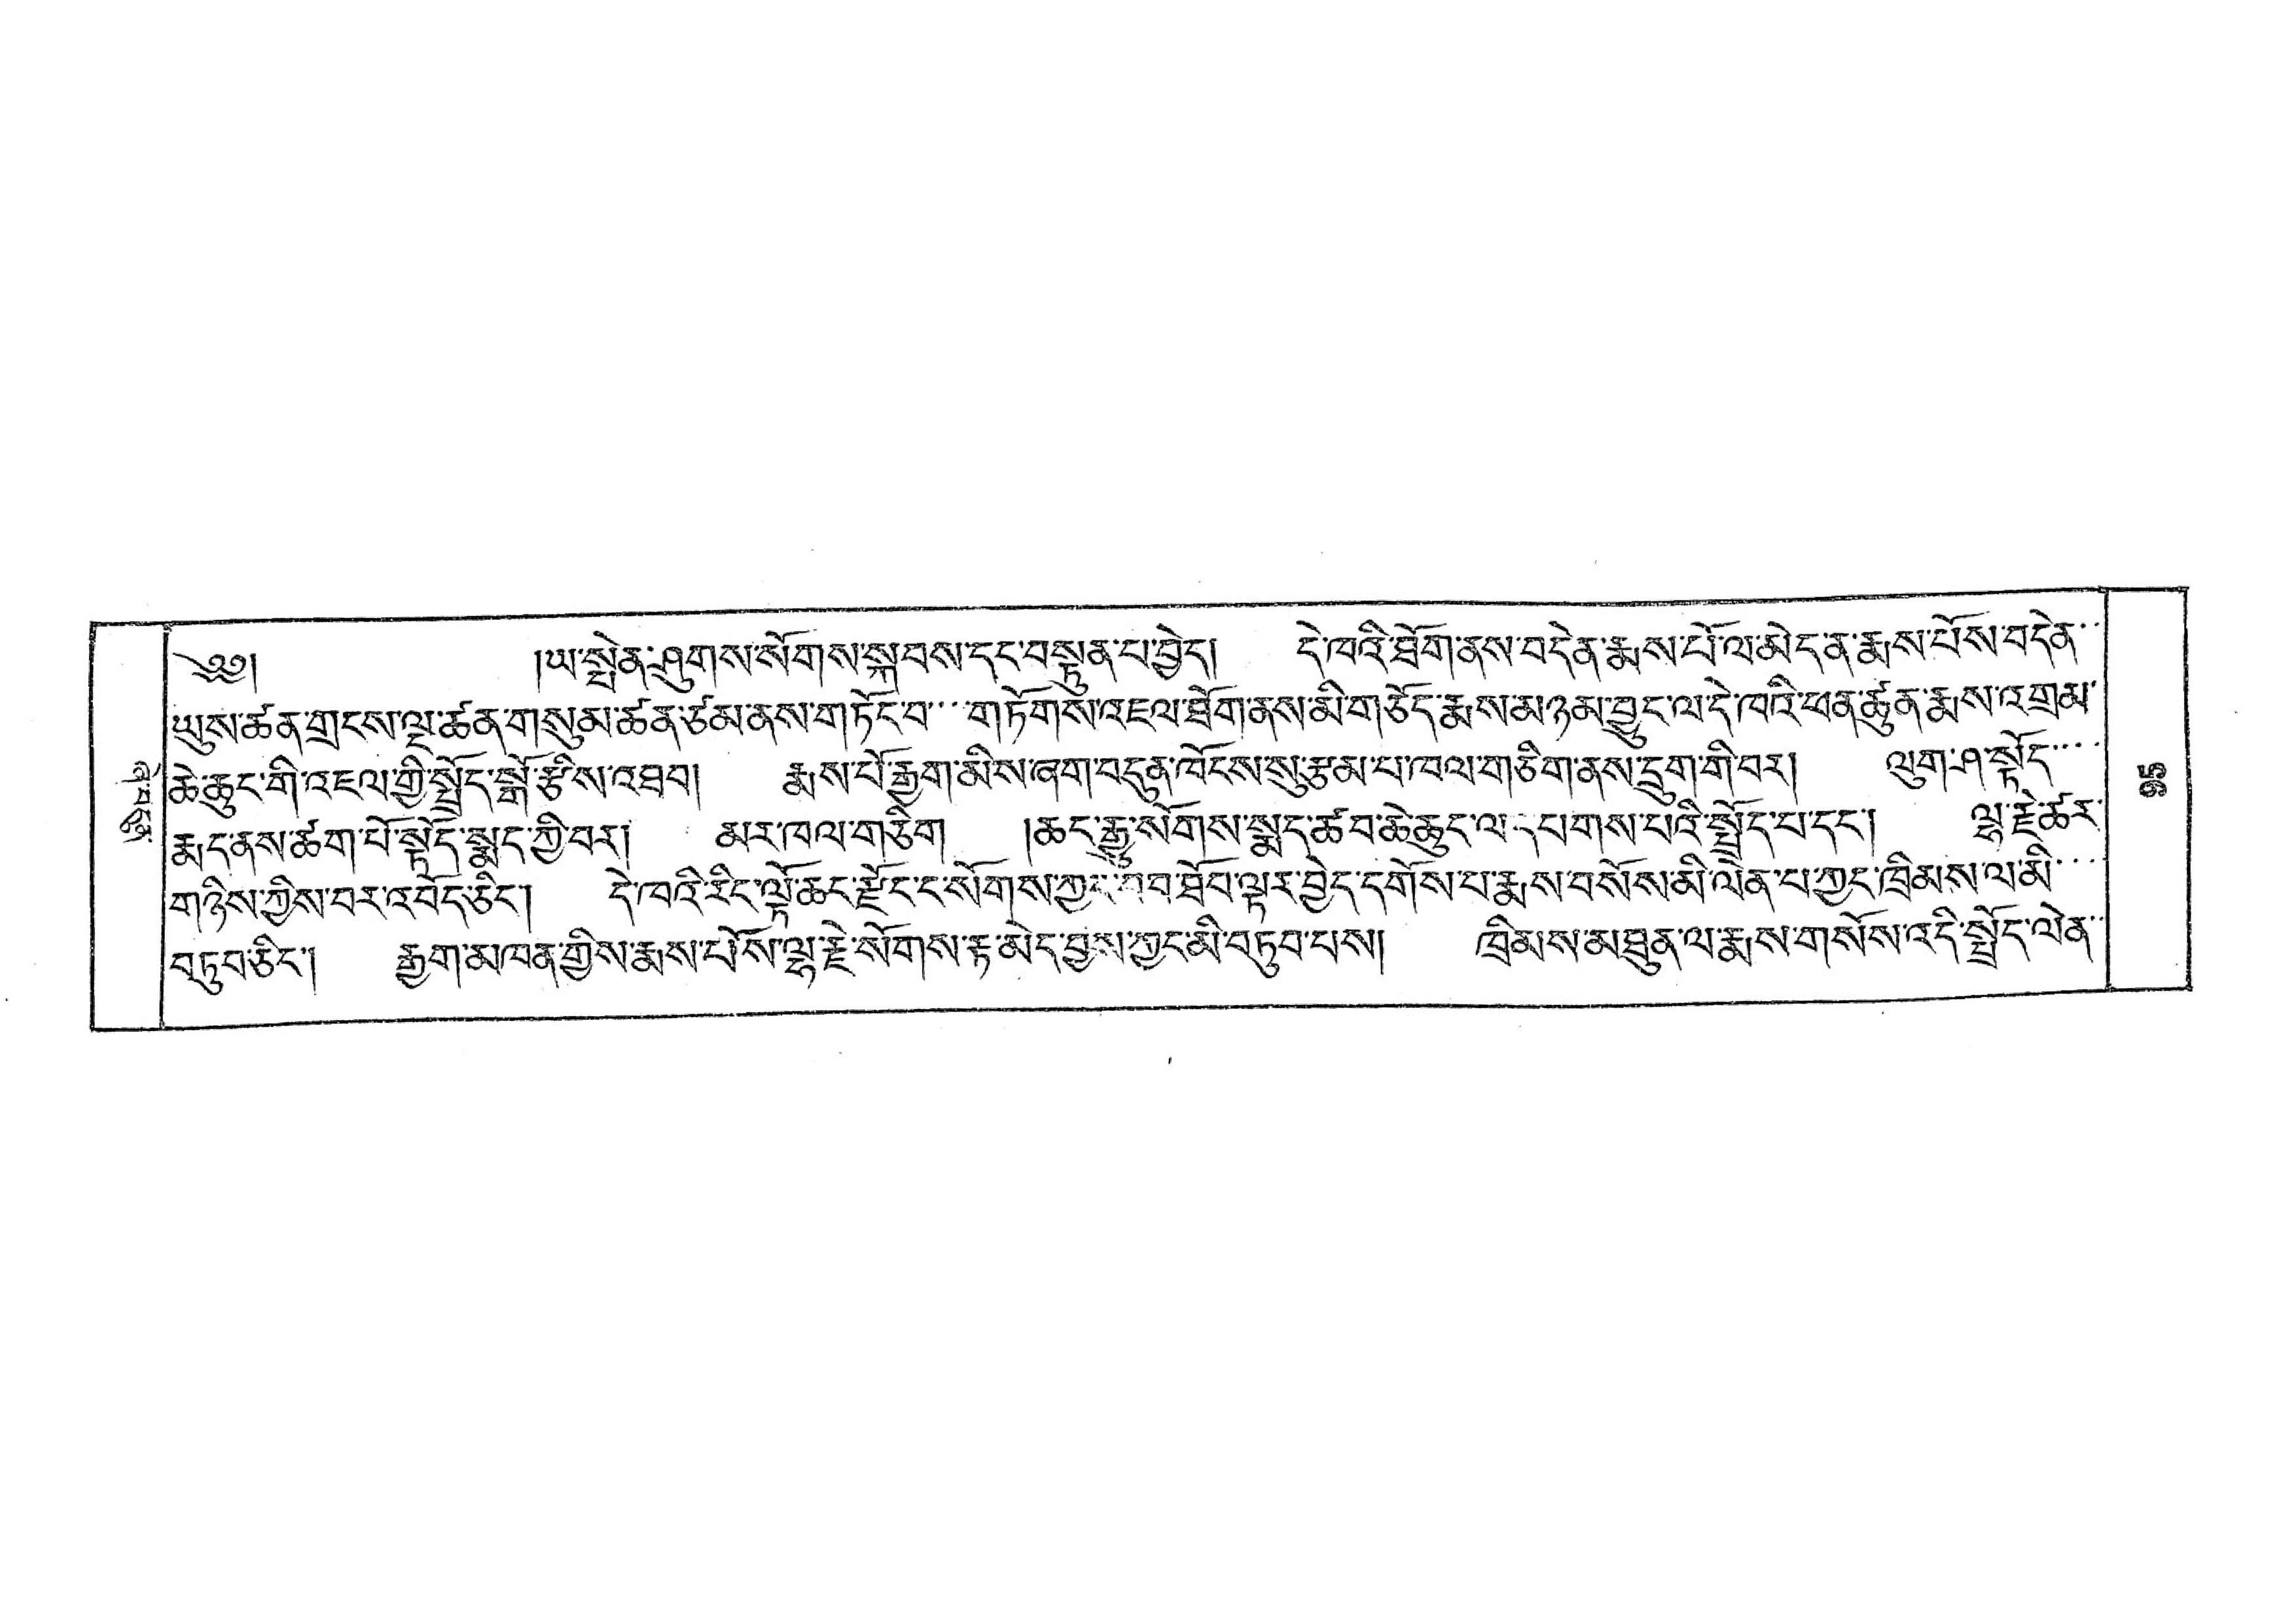ཞེ་བདུན་
༄༅།  །ཡ་སྤེན་ཤུགས་སོགས་སྐབས་དང་བསྟུན་པ་བྱེད། དེ་ཁའི་ཐོག་ནས་བདེན་རྨས་པོ་ལ་མེད་ན་རྨས་པོས་བདེན་་
ཡུས་ཚན་གྲངས་ལྔ་ཚན་གསུམ་ཚན་ཙམ་ནས་གཏོང་བ་་་གཏོགས་འཇལ་ཐོག་ནས་མི་གཅོད་རྨས་མཉམ་བྱུང་ལ་དེ་ཁའི་ཕན་ཚུན་རྨས་འགྲམ་
ཆེ་ཆུང་གི་འཇལ་གྱི་སྤྲོད་སྒོ་རྩིས་འཐབ། རྨས་པོ་རྒྱག་མིས་ཞག་བདུན་ཁོངས་སུ་རྩམ་པ་ཁལ་གཅིག་ནས་དྲུག་གི་བར། ལུག་ཤ་སྟོད་་་
རྨད་ནས་ཚག་པོ་སསྟོད་སྨད་ཀྱི་བར། མར་ཁལ་གཅིག །ཆང་རྒྱུ་སོགས་སྨད་ཚབ་ཆེ་ཆུང་ལ་དཔགས་པའི་སྤྲོད་པ་དང་། ལྷ་རྗེ་ཚར་
གཉིས་ཀྱིས་བར་འབོད་ཅིང་། དེ་ཁའི་རིང་ལྟོ་ཆང་རྫོང་ང་སོགས་ཀྱང་བབ་ཐོབ་ལྟར་བྱེད་དགོས་པ་རྨས་བསོས་མི་ལེན་པ་ཀྱང་ཁྲིམས་ལ་མི་་་་
བཏུབ་ཅིང་། རྒྱག་མཁན་གྱིས་རྨས་པོས་ལྷ་རྗེ་སོགས་རྟེ་མེད་བྱས་ཀྱང་མི་བཏུབ་པས། ཁྲིམས་མཐུན་ལ་རྨས་གསོས་འདི་སྤྲོད་ལེན་་
